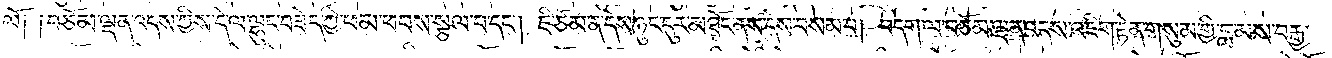ལོ༑ ༑བཅོམ་ལྡན་འདས་ཀྱིས་དེ་ལ་ལྷུང་བཟེད་ཀྱི་ཕམ་ཕབས་སྩལ་བ་དང༌། ཇི་ཙམ་ན་དེས་ཉུང་ངུར་མཐོང་ནས་དེས་བསམ་པ། བདག་ལ་བཅོམ་ལྡན་འདས་འཇིག་རྟེན་གསུམ་གྱི་བླ་མས་བརྒྱ་
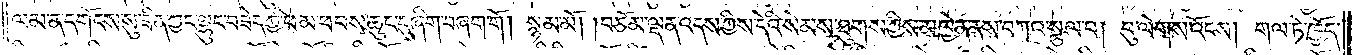ལམ་ན་དགོངས་སུ་ཟིན་ཀྱང་ལྷུང་བཟེད་ཀྱི་ཕམ་ཕབས་ཆུང་ངུ་ཞིག་བཞག་གོ། སྙམ་མོ། །བཅོམ་ལྡན་འདས་ཀྱིས་དེའི་སེམས་ཐུགས་ཀྱིས་མཁྱེན་ནས་བཀའ་སྩལ་པ། བུ་ལེགས་འོངས། གལ་ཏེ་ཁྱོད་
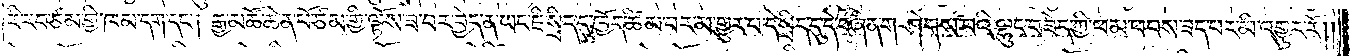རི་རབ་ཙམ་གྱི་ཁམ་དག་དང༌། རྒྱ་མཚོ་ཆེན་པོ་ཙམ་གྱི་ལྟོས་ཟ་བར་བྱེད་ན་ཡང་ཇི་སྲིད་དུ་ཁྱོད་ཚིམ་པར་མ་གྱུར་པ་དེ་སྲིད་དུ་དེ་བཞིན་གཤེགས་པའི་ལྷུང་བཟེད་ཀྱི་ཕམ་ཕབས་ཟད་པར་མི་འགྱུར་རོ༎
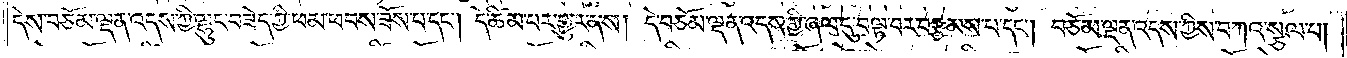དེས་བཅོམ་ལྡན་འདས་ཀྱི་ལྷུང་བཟེད་ཀྱི་ཕམ་ཕབས་ཟོས་པ་དང༌། དེ་ཚིམ་པར་གྱུར་ནས། དེ་བཅོམ་ལྡན་འདས་ཀྱི་ཞལ་དུ་བལྟ་བར་བརྩམས་པ་དང༌། བཅོམ་ལྡན་འདས་ཀྱིས་བཀའ་སྩལ་པ།
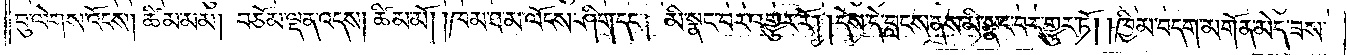བུ་ལེགས་འོངས། ཚིམ་མམ། བཅོམ་ལྡན་འདས། ཚིམ་མོ། །ཁམ་ཐ་མ་ལོངས་ཤིག་དང༌། མི་སྣང་བར་འགྱུར་རོ། །དེས་དེ་བླངས་ནས་མི་སྣང་བར་གྱུར་ཏོ། །ཁྱིམ་བདག་མགོན་མེད་ཟས་
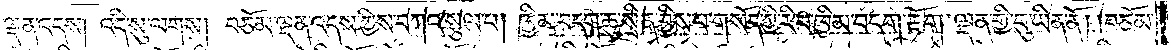ལྡན་འདས། འདི་སུ་ལགས། བཅོམ་ལྡན་འདས་ཀྱིས་བཀའ་སྩལ་པ། ཁྱིན་བདག་ཆུ་སྲིན་བྱིས་པ་གསོད་ཀྱི་རི་བ་ཁྱིམ་བདག་རྟོག་ལྡན་གྱི་དུ་ཡིན་ནོ། །བཅོམ་
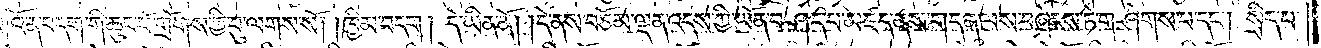འོ་ན་བདག་གི་ཆུང་པོ་གྲོགས་ཀྱི་བུ་ལགས་སོ། །ཁྱིམ་བདག། དེ་ཡིན་ནོ། །དེ་ནས་བཅོམ་ལྡན་འདས་ཀྱི་ཡོན་བཤད་པ་མཛད་ནས་གདན་ལས་བཞེངས་ཏེ་གཤེགས་པ་དང༌། སྲིད་པ་
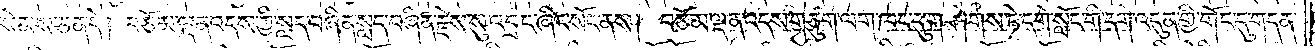སེམས་ཅན་དེ། བཅོམ་ལྡན་འདས་ཀྱི་སླད་བཞིན་སླད་བཞིན་རྗེས་སུ་འབྲང་ཞིང་སོང་ནས། བཅོམ་ལྡན་འདས་གཙུག་ལག་ཁང་དུ་གཤེགས་ཏེ་དགེ་སློང་གི་དགེ་འདུན་གྱི་གོང་དུ་གདན་
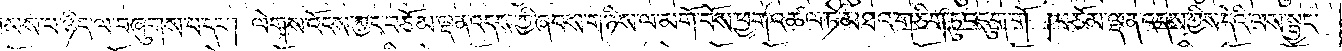བཤམས་པ་ཉིད་ལ་བཞུགས་པ་དང༌། ལེགས་འོངས་ཀྱང་བཅོམ་ལྡན་འདས་ཀྱི་ཞབས་གཉིས་ལ་མགོ་བོས་ཕྱག་འཚལ་ཏེ་མཐའ་གཅིག་ཏུ་འདུག་གོ །བཅོམ་ལྡན་འདས་ཀྱིས་དེའི་ལས་སྦྱང་
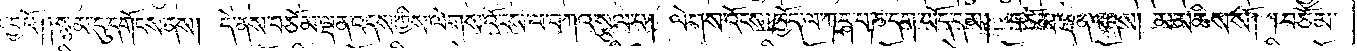བྱའོ། །སྙམ་དུ་དགོངས་ནས། དེ་ནས་བཅོམ་ལྡན་འདས་ཀྱིས་ལེགས་འོངས་ལ་བཀའ་སྩལ་པ། ལེགས་འོངས། ཁྱོད་ལ་ཀཪྴ་པ་ཎ་དག་ཡོད་དམ། བཅོམ་ལྡན་འདས། མ་མཆིས་སོ། །བཅོམ་
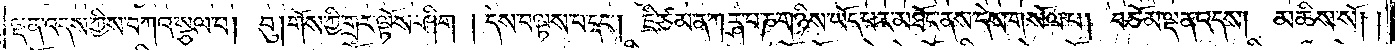ལྡན་འདས་ཀྱིས་བཀའ་སྩལ་པ། བུ། གོས་ཀྱི་གྲར་ལྟོས་ཤིག །དེས་བལྟས་པ་དང༌། ཇི་ཙམ་ན་ཀཪྴ་པ་ཎ་གཉིས་ཡོད་པར་མཐོང་ནས་དེས་གསོལ་བ། བཅོམ་ལྡན་འདས། མཆིས་སོ། །
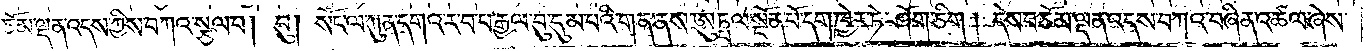བཅོམ་ལྡན་འདས་ཀྱིས་བཀའ་སྩལ་པ། བུ། སོང་ལ་ཀུན་དགའ་ར་བ་པ་རྒྱལ་བུ་དུམ་པའི་གན་ནས་ཨུཏྤལ་སྔོན་པོ་དག་ཁྱེར་ཏེ་ཤོག་ཅིག །དེས་བཅོམ་ལྡན་འདས་བཀའ་བཞིན་འཚལ་ཞེས་
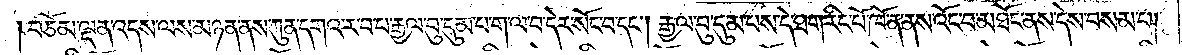བཅོམ་ལྡན་འདས་ལས་མཉན་ནས་ཀུན་དགའ་ར་བ་པ་རྒྱལ་བུ་དུམ་པ་ག་ལ་བ་དེར་སོང་བ་དང༌། རྒྱལ་བུ་དུམ་པས་དེ་ཐག་རིང་པོ་ཁོ་ན་ནས་འོང་བ་མཐོང་ནས་དེས་བསམ་པ།
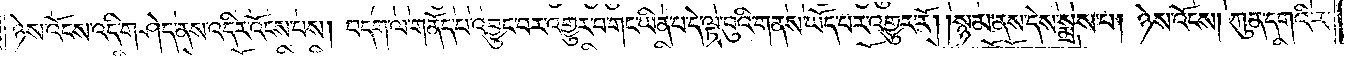ཉེས་འོངས་འདི་གཤེད་ནས་འདིར་འོངས་པས། བདག་ལ་གནོད་པ་འབྱུང་བར་འགྱུར་བ་གང་ཡིན་པ་དེ་ལྟ་བུའི་གནས་ཡོད་པར་འགྱུར་རོ། །སྙམ་ནས་དེས་སྨྲས་པ། ཉེས་འོངས། ཀུན་དགའི་ར་
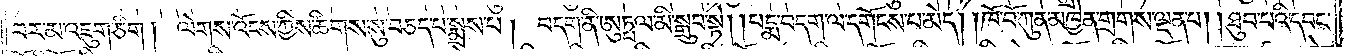བར་མ་འཇུག་ཅིག །ལེགས་འོངས་ཀྱིས་ཚིགས་སུ་བཅད་པ་སྨྲས་པ། བདག་ནི་ཨུཏྤལ་མི་སྒྲུབ་སྟེ། །པདྨ་བདག་ལ་དགོངས་པ་མེད། །ཁོ་བོ་ཀུན་མཁྱེན་གྲགས་ལྡན་པ། །ཐུབ་པའི་དབང་
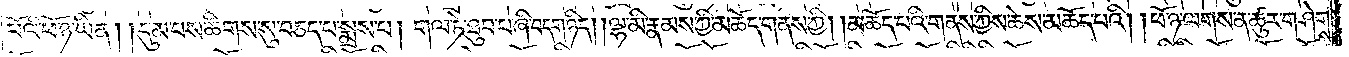པོའི་ཕོ་ཉ་ཡིན། །དུམ་པས་ཚིགས་སུ་བཅད་པ་སྨྲས་པ། གལ་ཏེ་ཐུབ་པ་ཞི་བདག་ཉིད། །ལྷ་མི་རྣམས་ཀྱི་མཆོད་གནས་ཀྱི། །མཆོད་པའི་གནས་ཀྱིས་ཆེས་མཆོད་པའི། །ཕོ་ཉ་ལགས་ན་ཚུར་གཤེགས་
